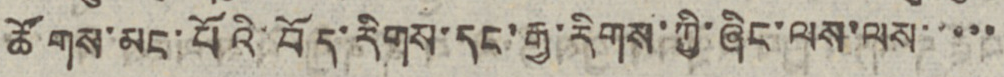ཚོགས་མང་པོའི་བོད་རིགས་དང་རྒྱ་རིགས་ཀྱི་ཞིང་ལས་ལས་་་་་
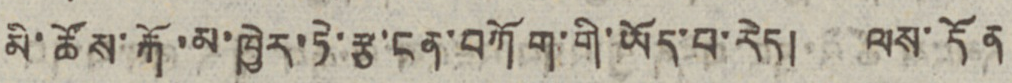མི་ཚོས་རྐོ་མ་ཁྱེར་ཏེ་རྩ་ངན་བཀོག་གི་ཡོད་པ་རེད། ལས་དོན
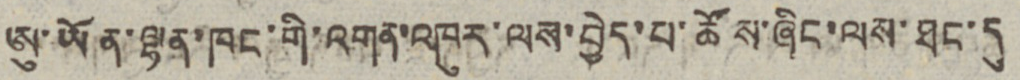ཨུ་ཡོན་ལྷན་ཁང་གི་འགན་འཁུར་ལས་བྱེད་པ་ཚོས་ཞིང་ལས་ཐང་དུ
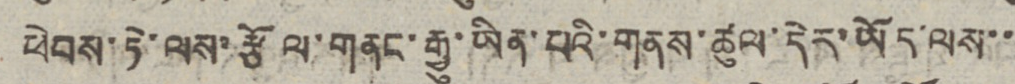ཕེབས་ཏེ་ལས་རྩོལ་གནང་རྒྱུ་ཡིན་པའི་གནས་ཚུལ་དེར་ཡོད་ལས་་
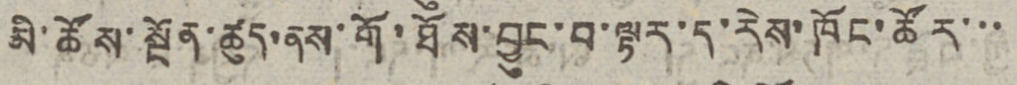མི་ཚོས་སྔོན་ཚུད་ནས་གོ་ཐོས་བྱུང་བ་ལྟར་ད་རེས་ཁོང་ཚོར་་་
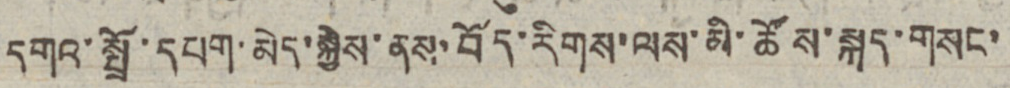དགའ་སྤྲོ་དཔག་མེད་སྐྱེས་ནས་བོད་རིགས་ལས་མི་ཚོས་སྐད་གསང་
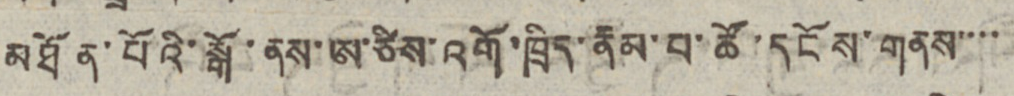མཐོན་པོའི་སྒོ་ནས་ཨ་ཙིས་འགོ་ཁྲིད་རྣམ་པ་ཚོ་དངོས་གནས་་་་
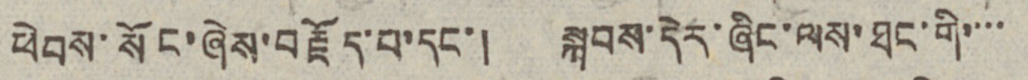ཕེབས་སོང་ཞེས་བརྗོད་པ་དང་། སྐབས་དེར་ཞིང་ལས་ཐང་གི་་་་
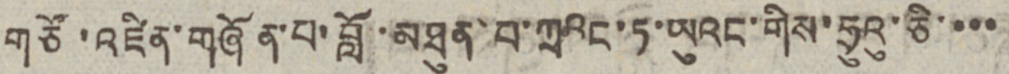གཙོ་འཛིན་གཞོན་པ་བློ་མཐུན་པ་ཀྲའང་ཏ་ཡུའང་གིས་ཧྲུའུ་ཅི་་་་
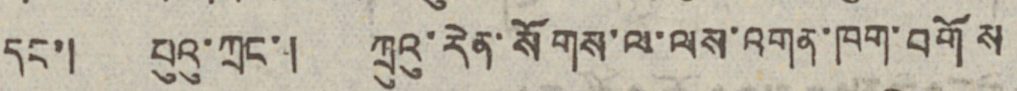དང་། པུའུ་ཀྲང་། ཀྲུའུ་རེན་སོགས་ལ་ལས་འགན་ཁག་བགོས
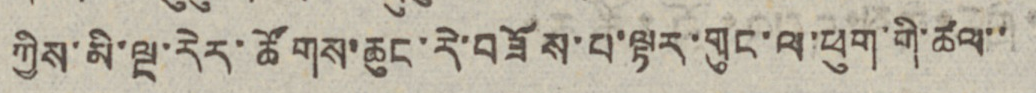ཀྱིས་མི་ལྔ་རེར་ཚོགས་ཆུང་རེ་བཟོས་པ་ལྟར་གུང་ལ་ཕུག་གི་ཚལ་་
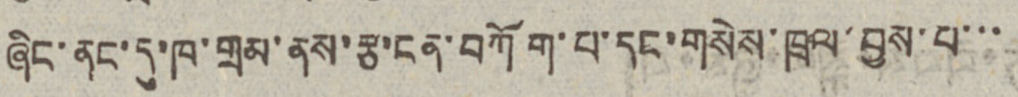ཞིང་ནང་དུ་ཁ་གྲམ་ནས་རྩ་ངན་བཀོག་པ་དང་གསེས་ཁྲལ་བྱས་པ་་་
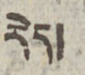རེད།
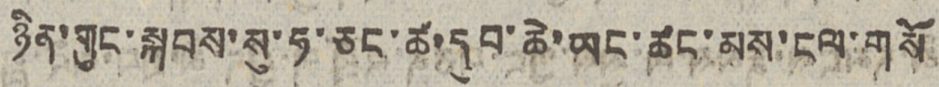ཉིན་གུང་སྐབས་སུ་ཧ་ཅང་ཚ་དུབ་ཆེ་ཡང་ཚང་མས་ངལ་གསོ
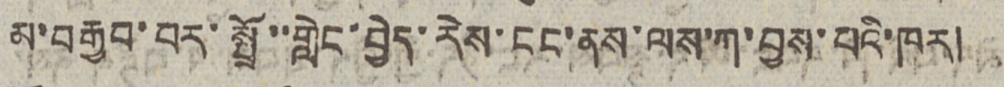མ་བརྒྱབ་བར་སྤྲོ་་གླེང་བྱེད་རེས་ངང་ནས་ལས་ཀ་བྱས་པའི་ཁར།
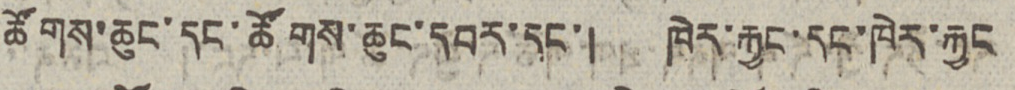ཚོགས་ཆུང་དང་ཚོགས་ཆུང་དབར་དང་། ཁེར་རྐྱང་དང་ཁེར་རྐྱང
